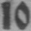No 10.
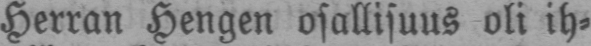Herran Hengen osallisuus oli ih-
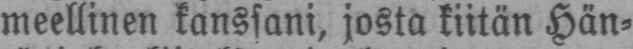meellinen kanssani, josta kiitän Hän-
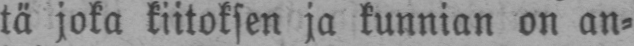tä joka kiitoksen ja kunnian on an-
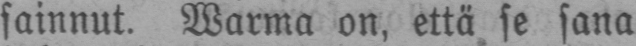sainnut. Warma on, että se sana
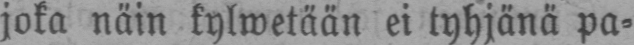joka näin kylwetään ei tyhjänä pa-
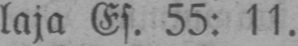laja Es. 55: 11.
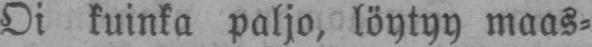Oi kuinka paljo, löytyy maas-
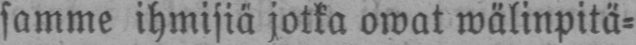samme ihmisiä jotka owat wälinpitä-
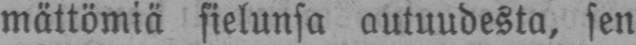mättömiä sielunsa autuudesta, sen
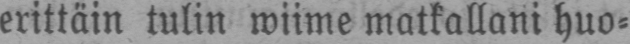erittäin tulin wiime matkallani huo-
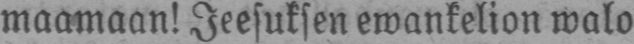maamaan! Jeesuksen ewankelion walo
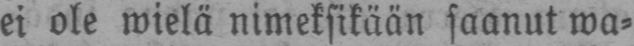ei ole wielä nimeksikään saanut wa-
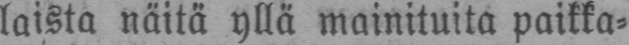laista näitä yllä mainituita paikka-
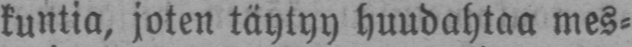kuntia, joten täytyy huudahtaa mes-
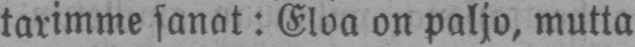tarimme sanat: Eloa on paljo, mutta
